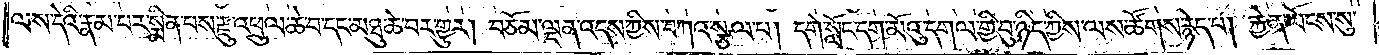ལས་དེའི་རྣམ་པར་སྨིན་པས་རྫུ་འཕྲུལ་ཆེ་བ་དང་མཐུ་ཆེ་བར་གྱུར། བཅོམ་ལྡན་འདས་ཀྱིས་བཀའ་སྩལ་པ། དགེ་སློང་དག་མོའུ་དགལ་གྱི་བུ་ཉིད་ཀྱིས་ལས་ཚོགས་རྙེད་པ། རྐྱེན་ཡོངས་སུ་
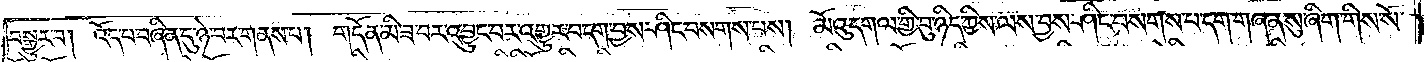བསྒྱུར་བ། འོད་པ་བཞིན་དུ་ཉེ་བར་གནས་པ། གདོན་མི་ཟ་བར་འབྱུང་བར་འགྱུར་བ་དག་བྱས་ཤིང་བསགས་པས། མོའུ་དགལ་གྱི་བུ་ཉིད་ཀྱིས་ལས་བྱས་ཤིང་བསགས་པ་དག་གཞན་སུ་ཞིག་གིས་སོ་
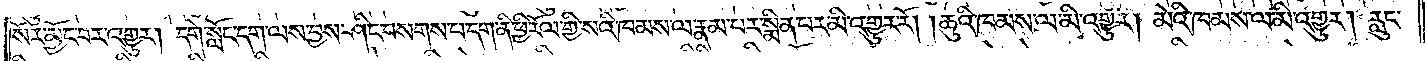སོར་མྱོང་བར་འགྱུར། དགེ་སློང་དག་ལས་བྱས་ཤིང་བསགས་པ་དག་ནི་ཕྱི་རོལ་གྱི་སའི་ཁམས་ལ་རྣམ་པར་སྨིན་པར་མི་འགྱུར་རོ། །ཆུའི་ཁམས་ལ་མི་འགྱུར། མེའི་ཁམས་ལ་མི་འགྱུར། རླུང་
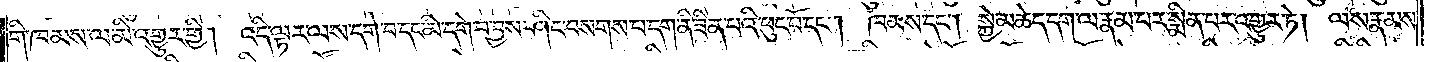གི་ཁམས་ལ་མི་འགྱུར་གྱི། འདི་ལྟར་ལས་དགེ་བ་དང་མི་དགེ་བ་བྱས་ཤིང་བསགས་པ་དག་ནི་ཟིན་པའི་ཕུང་པོ་དང༌། ཁམས་དང༌། སྐྱེ་མཆེད་དག་ལ་རྣམ་པར་སྨིན་པར་འགྱུར་ཏེ། ལས་རྣམས་
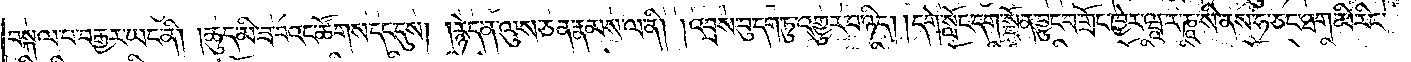བསྐལ་པ་བརྒྱར་ཡང་ནི། །ཆུད་མི་ཟ་བའང་ཚོགས་དང་དུས། །རྙེད་ན་ལུས་ཅན་རྣམས་ལ་ནི། །འབྲས་བུ་དག་ཏུ་འགྱུར་བ་ཉིད། །དགེ་སློང་དག་སྔོན་བྱུང་བ་གྲོང་ཁྱེར་ཝཱ་ར་ཎཱ་སི་ནས་ཧ་ཅང་ཐག་མི་རིང་
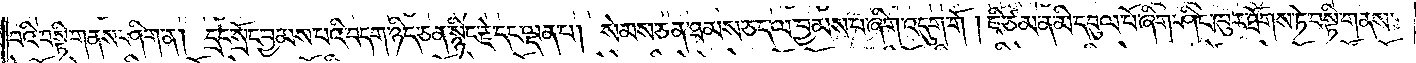བའི་བསྟི་གནས་ཤིག་ན། དྲང་སྲོང་བྱམས་པའི་བདག་ཉིད་ཅན་སྙིང་རྗེ་དང་ལྡན་པ། སེམས་ཅན་ཐམས་ཅད་ལ་བྱམས་པ་ཞིག་འདུག་གོ །ཇི་ཙམ་ན་མི་དབུལ་པོ་ཞིག་ཤིང་ཁུར་ཐོགས་ཏེ་བསྟི་གནས་
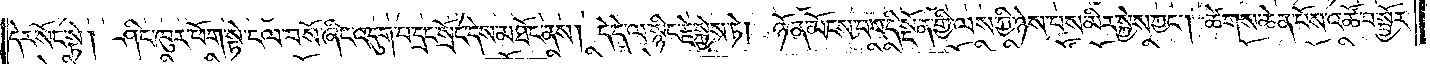དེར་སོང་སྟེ། ཤིང་ཁུར་ཕོག་སྟེ་ངལ་བསོ་ཞིང་འདུག་པ་དྲང་སྲོང་དེས་མཐོང་ནས། དེ་དེ་ལ་སྙིང་རྗེ་སྐྱེས་ཏེ། ཉོན་མོངས་པ་འདི་སྔོན་གྱི་ལས་ཀྱི་ཉེས་བས་མིར་སྐྱེས་ཀྱང༌། ཚེགས་ཆེན་པོས་འཚོ་བ་སྦྱོར་
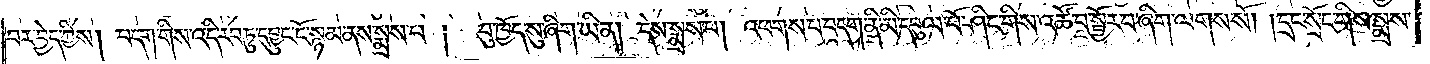བར་བྱེད་ཀྱིས། བདག་གིས་འདི་རབ་ཏུ་དབྱུང་ངོ་སྙམ་ནས་སྨྲས་པ། བུ་ཁྱོད་སུ་ཞིག་ཡིན། དེས་སྨྲས་པ། འཕགས་པ་བདག་ནི་མི་དབུལ་པོ་ཤིང་གིས་འཚོ་བ་སྦྱོར་བ་ཞིག་ལགས་སོ། །དྲང་སྲོང་གིས་སྨྲས་
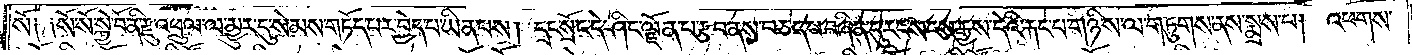སོ༑ ༑སོ་སོ་སྐྱེ་བོ་ནི་རྫུ་འཕྲུལ་ལ་མྱུར་དུ་སེམས་གཏོད་པར་བྱེད་པ་ཡིན་པས། དྲང་སྲོང་དེ་ཤིང་ལྗོན་པ་རྩབ་ནས་བཅད་པ་བཞིན་དུ་རང་སངས་རྒྱས་དེའི་རྐང་པ་གཉིས་ལ་གཏུགས་ནས་སྨྲས་པ། འཕགས་
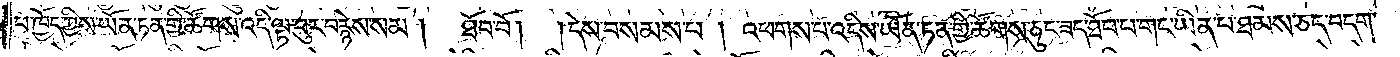པ་ཁྱོད་ཀྱིས་ཡོན་ཏན་གྱི་ཚོགས་འདི་ལྟ་བུར་བརྙེས་སམ། ཐོབ་བོ། །དེས་བསམས་པ། འཕགས་པ་འདིས་ཡོན་ཏན་གྱི་ཚོགས་ཅུང་ཟད་ཐོབ་པ་གང་ཡིན་པ་ཐམས་ཅད་བདག་
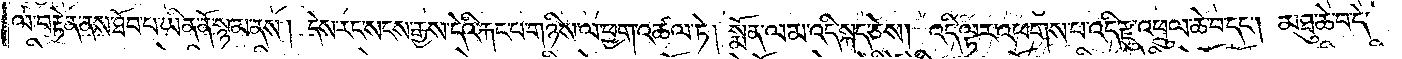ལ་བརྟེན་ནས་ཐོབ་པ་ཡིན་ནོ་སྙམ་ནས། དེས་རང་སངས་རྒྱས་དེའི་རྐང་པ་གཉིས་ལ་ཕྱག་འཚལ་ཏེ། སྨོན་ལམ་འདི་སྐད་ཅེས། འདི་ལྟར་འཕགས་པ་འདི་རྫུ་འཕྲུལ་ཆེ་བ་དང༌། མཐུ་ཆེ་བ་དེ་
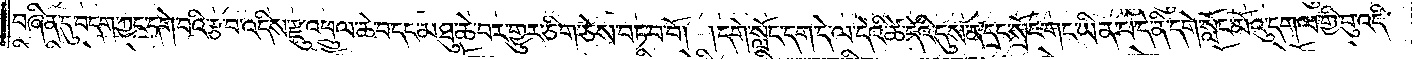བཞིན་དུ་བདག་ཀྱང་དགེ་བའི་རྩ་བ་འདིས་རྫུ་འཕྲུལ་ཆེ་བ་དང་མཐུ་ཆེ་བར་གྱུར་ཅིག་ཅེས་བཏབ་བོ། །དགེ་སློང་དག་དེ་ལ་དེའི་ཚེ་དེའི་དུས་ན་དྲང་སྲོང་གང་ཡིན་པ་དེ་ནི་དགེ་སློང་མོའུ་དགལ་གྱི་བུ་འདི་
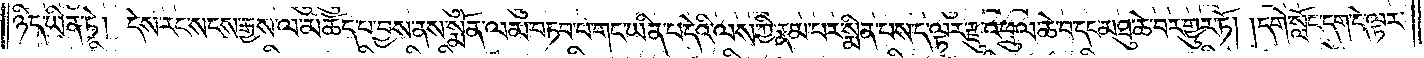ཉིད་ཡིན་ཏེ། དེས་རང་སངས་རྒྱས་ལ་མཆོད་པ་བྱས་ནས་སྨོན་ལམ་བཏབ་པ་གང་ཡིན་པ་དེའི་ལས་ཀྱི་རྣམ་པར་སྨིན་པས་ད་ལྟར་རྫུ་འཕྲུལ་ཆེ་བ་དང་མཐུ་ཆེ་བར་གྱུར་ཏོ། །དགེ་སློང་དག་དེ་ལྟར་
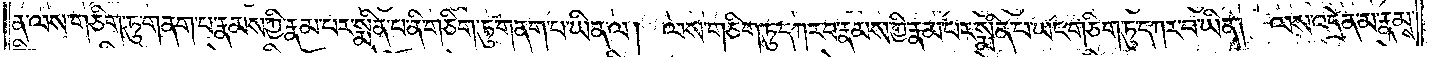ན་ལས་གཅིག་ཏུ་གནག་པ་རྣམས་ཀྱི་རྣམ་པར་སྨིན་པ་ནི་གཅིག་ཏུ་གནག་པ་ཡིན་ལ། ལས་གཅིག་ཏུ་དཀར་བ་རྣམས་ཀྱི་རྣམ་པར་སྨིན་པ་ཡང་གཅིག་ཏུ་དཀར་བ་ཡིན། ལས་འདྲེན་མ་རྣམས་
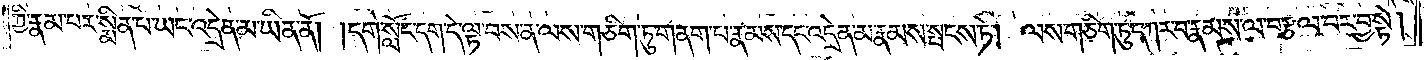ཀྱི་རྣམ་པར་སྨིན་པ་ཡང་འདྲེན་མ་ཡིན་ནོ། །དགེ་སློང་དག་དེ་ལྟ་བས་ན་ལས་གཅིག་ཏུ་གནག་པ་རྣམས་དང་འདྲེན་མ་རྣམས་སྤངས་ཏེ། ལས་གཅིག་ཏུ་དཀར་བ་རྣམས་ལ་བརྩལ་བར་བྱ་སྟེ།
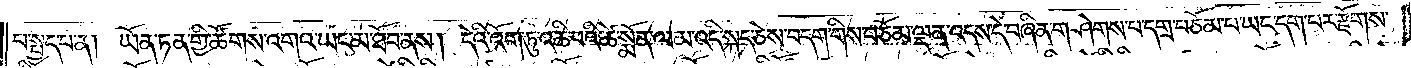པ་སྤྱད་པ་ན། ཡོན་ཏན་གྱི་ཚོགས་འགའ་ཡང་མ་ཐོབ་ནས། དེའི་འོག་ཏུ་འཆི་བའི་ཚེ་སྨོན་ལམ་འདི་སྐད་ཅེས་བདག་གིས་བཅོམ་ལྡན་འདས་དེ་བཞིན་གཤེགས་པ་དགྲ་བཅོམ་པ་ཡང་དག་པར་རྫོགས་
